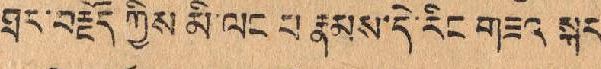ཐར་བརྗོད ཀྱིས མི་ལང་པ རྣམས་དེ་རིང་གཟའ སྐར་
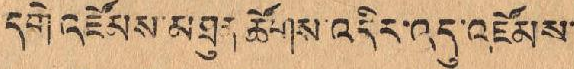དགེ འཛོམས་མཐུན ཚོགས་འདིར་འདུ་འཛོམས་
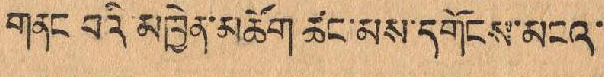གནང བའི་མཁྱེན་མཆོག ཚང་མས་དགོངས་མངའ་
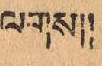ལགས།།
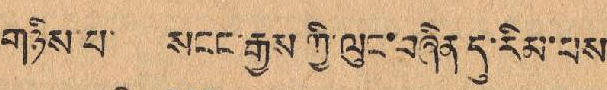གཉིས་པ་ སངས་རྒྱས་ཀྱི་ལུང་བཞིན་དུ་རིམ་པས་
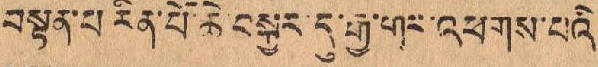བསྟན་པ་རིན་པོ་ཆེ་བསྐྱར་དུ་རྒྱ་གར་འཕགས་པའི་
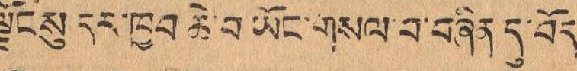ལྗོངསུ དར་ཁྱབ ཆེ་བ་ཡོང་གསལ་བ་བཞིན་དུ་བོད་
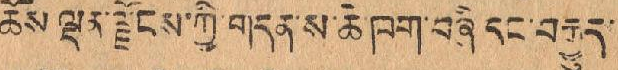ཆོས ལྡན་ལྗོངས་ཀྱི་གདན་ས་ཆེ་ཁག་བཞི དང་བརྒྱུད་
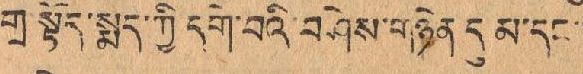གྲ་སྟོད་སྨད་ཀྱི་དགེ་བའི་བཤེས་གཉེན་དུ མ་དང་།
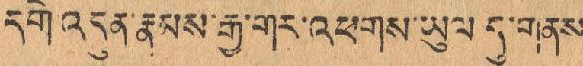དགེ་འདུན་རྣམས་རྒྱ་གར་འཕགས་ཡུལ དུ་གནས་
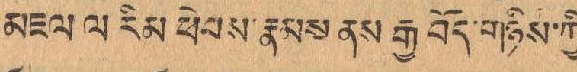མཇལ ལ རིམ ཕེབས་རྣམས་ནས རྒྱ བོད་གཉིས་ཀྱི་
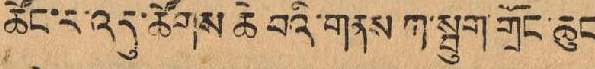ཚོང་ར་འདུ་ཚོགས ཆེ བའི་གནས ཀ་སྦུག་གྲོང་ཆུང་
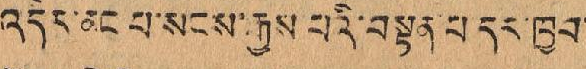འདིར་ནང་པ་སངས་རྒྱས་པའི་བསྟན་པ་དར་ཁྱབ་
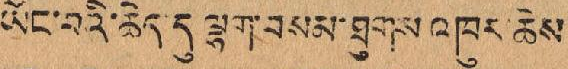ཡོང་བའི་ཆེད་དུ་ལྷག་བསམ་ཐུགས་འཁུར་ཆེས་
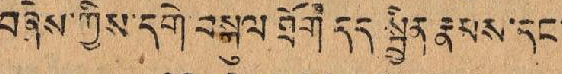བཞེས་ཀྱིས་དགེ་བསྐུལ་ཐོག་དད་དབྱིན་རྣམས་དང་
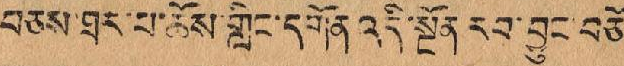བཅས་ཐར་པ་ཆོས་གླིང་དགོན་འདི་སྔོན་རབ་བྱུང བཅོ་
